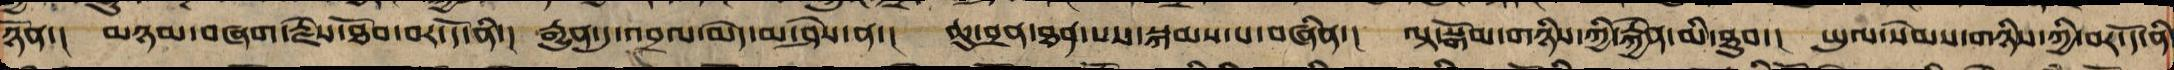དཔའ་ཉོན་། མཉམ་བཞག་རྗེས་ཐོབ་བར་དོར་ནི་། རྒྱུན་དུ་འབྲལ་མེད་མ་ཤེས་ན་། ཆུ་བྲན་ཐན་པས་བསྐམས་པ་བཞིན་། ལྟ་སྒོམ་གཉིས་ཀྱིས་རྐྱེན་མི་ཐུབ་། ཡུལ་སེམས་གཉིས་ཀྱི་བར་དོ་ནི
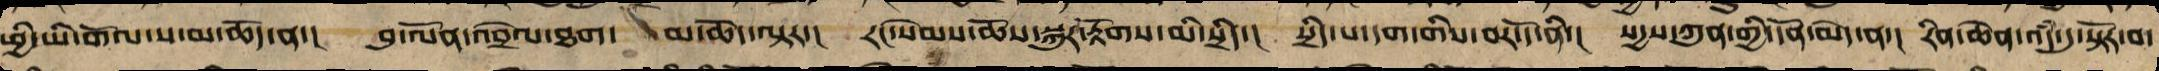ཕྱི་ཡི་གོལ་ས་མ་ཆོད་ན་། བུ་ལོན་འབྲེལ་ཐག་མ་ཆོད་ལྟར་། རང་སེམས་ཆོས་སྐུར་རྟོགས་མི་སྲིད་། སྲིད་པ་དག་གི་བར་དོར་ནི་། སདྱས་ཀུན་གྱི་དོན་མེད་ན་། རིན་ཆེན་འདཾ་དུ་སྟོར་བ་
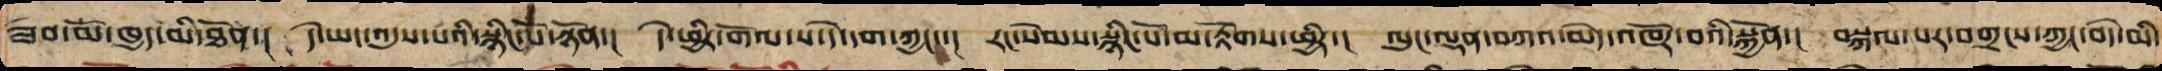ཟབ་མོ་ཁྱད་མི་ཐོན་། དེ་ཡང་འདུས་པའི་སྙིང་པོ་ཉོན་། དེ་ཕྱིར་གོལ་ས་དེ་དག་ཀྱང་་། རང་སེམས་སྙིང་པོ་མ་རྟོགས་ཕྱིར་། ལུང་ལྡན་བཀའ་མེད་འཁོར་བའི་སྐྱོན་། བསྐལ་པར་བགྲངས་ཀྱང་བདེ་མི་
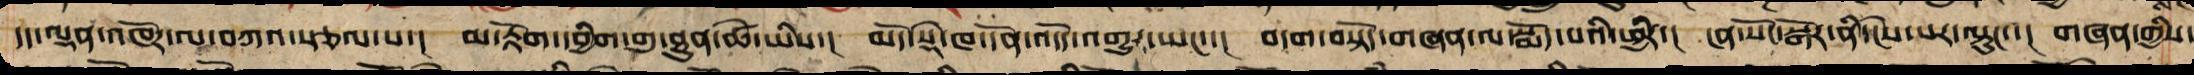དད་ལྡན་འཁོར་ལ་བཀའ་སྩལ་པ་། མ་རྟོགས་དབྱིག་དགུ་ཐུན་ཚེ་ཡིས་། མདོ་སྡེ་ཁ་དོན་གདོད་འགྱུར་ཀྱང་་། བདག་བསྟོད་གཞན་ལ་སྨོད་པའི་ཕྱིར་། ངན་སོང་སྒོར་ནི་ངེས་པར་ལྟུང་་། གཞན་གྱི་
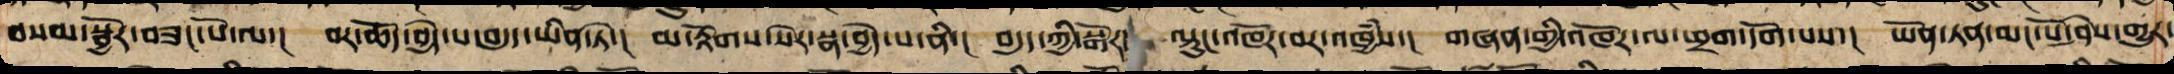བསམ་སྦྱོར་བཟང་པོ་ལ་། བར་ཆོད་བྱེད་པ་བདུད་ཡིན་ཏེ་། མ་རྟོགས་སེར་སྣ་བྱེད་པ་ནི་། བདུད་ཀྱི་སྒོར་ལྟུང་འཁོར་བར་འཁྱཾས་། གཞན་གྱི་འཁོར་ལ་ཕྲག་དོག་པས་། ཡོན་ཏན་མང་པོ་ཤེས་གྱུར་
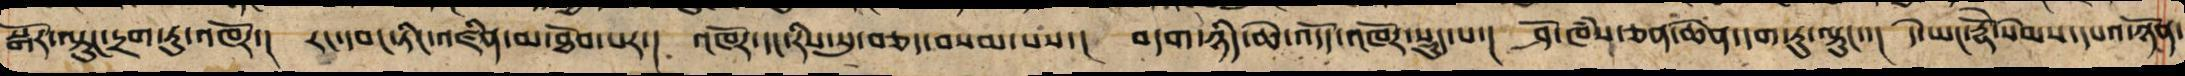སྒོར་ལྟུང་དྲག་ཏུ་འཁོར་། རང་དབང་ཏིང་འཛིན་མ་ཐོབ་པར་། འཁོར་དང་རིས་སུ་བཅད་བསམས་པས་། བདག་ཉིད་ཆེ་འདོད་འཁོར་སྡུད་པ་། ཤོ་ཁཾས་ཅན་ཆེན་དག་ཏུ་ལྟུང་་། དེ་ཡང་རྡོཻ་སེམས་དཔའ་ཉོན་
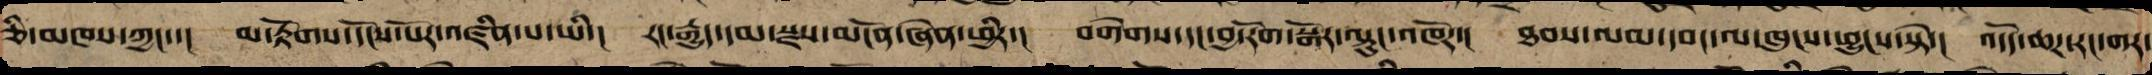ཅི་མཁས་ཀྱང་་། མ་རྟོགས་དངོས་པོར་འཛིན་པ་ཡིས་། རང་རྒྱུད་དམ་སྫས་མངོན་ཞེན་ཕྱིར་། བགེགས་དང་བྱ་རོག་སྒོར་ལྟུང་འཁོར་། ཐབས་ལམ་དབང་ལ་ཁུངས་ཕྱུངས་སྟེ་། འདོད་ཆཌ་རང་དགར་
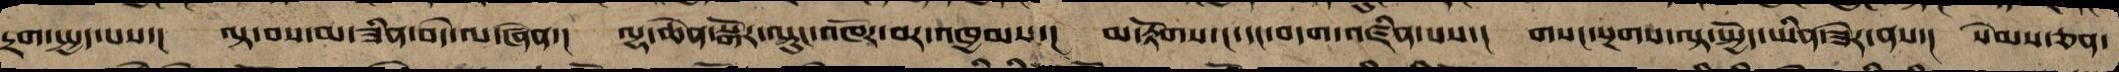དྲག་སྤྱད་པས་། ལྟ་བས་མ་ཟིན་བདེ་ལ་ཞེན་། ལྷ་ཆེན་སྒོར་ལྟུང་འཁོར་བར་འཁྱམས་། མ་རྟོགས་ང་དང་བདག་འཛིན་པས་། གསང་སྔགས་ལྟ་སྤྱོད་ཡིན་ཟེར་ནས་། སེམས་ཅན་
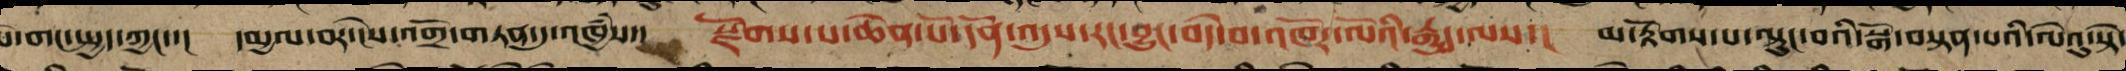པོ་གང་སྤྱད་ཀྱང་་། དམྱལ་བར་ངེས་འགྲོ་གཏན་དུ་འཁྱཾས་། སྫོགས་པ་ཆེན་པོ་དོན་འདུས་རང་བྱུང་བདེ་བའི་འཁོར་ལོའི་རྒྱུད་ལས་། མ་རྟོགས་པ་ལྟུང་བའི་སྒོ་བསྟན་པའི་ལེའུ་སྟེ་
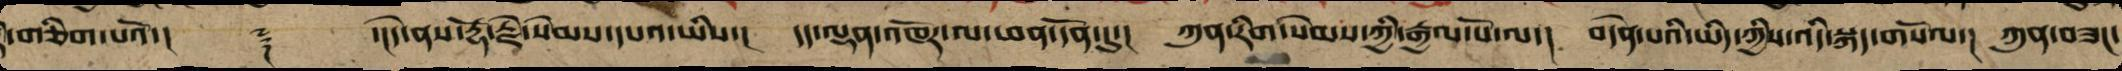རེ་གཅིག་པའོ་།། ༈ ་།།དེ་ནས་རྡོ་རྗེ་སེམས་དཔའ་ཡིས་། དད་ལྡན་འཁོར་ལ་ཕན་དོན་དུ་། ཀུན་རིག་སེམས་ཀྱི་རྒྱལ་པོ་ལ་། བདེན་པའི་ཡིད་ཀྱིས་འདི་སྐད་གསོལ་། ཀུན་བཟང་
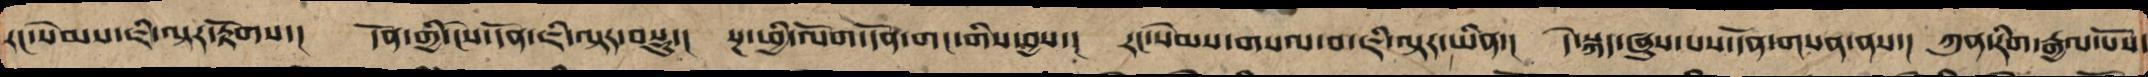རང་སེམས་ཇི་ལྟར་རྟོགས་། དོན་གྱི་ངེས་དོན་ཇི་ལྟར་བསྡུ་། སྔ་ཕྱི་ལོག་གནོན་གང་གིས་བྱས་། རང་སེམས་གསལ་བ་ཇི་ལྟར་ཡིན་། དེ་སྐད་ཞུས་པའི་དོན་གསན་ནས་། ཀུན་རིག་རྒྱལ་པོས་
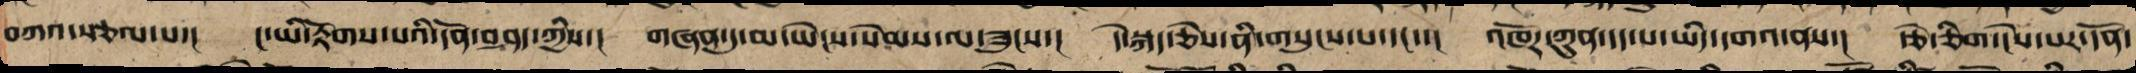བཀའ་སྩལ་པ་། ང་ཡི་རྟོགས་པའི་དོན་བཤད་ཀྱིས་། གཞན་དུ་མ་ཡེངས་སེམས་ལ་ཟུངས་། དེ་སྐད་ཅེས་ནི་གསུངས་པ་དང་་། འཁོར་ཀུན་དད་པ་ཡིད་དགའ་ནས་། རྩེ་གཅིག་ངེས་པར་དོན་
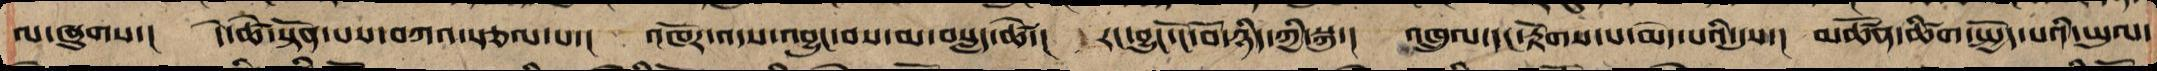ལ་ཞུགས་། དེ་ཚེ་སྟོན་པས་བཀའ་སྩལ་པ་། འཁོར་འདས་འབྱུང་བས་མ་བསླད་ཚེ་། རང་བྱུང་ངོ་བོ་ཉིད་ཀྱི་སྐུ་། འཁྲུལ་དང་རྟོགས་པ་མེད་པའི་དུས་། མཚོན་ཚིག་སྤྱོད་པའི་ཡུལ་
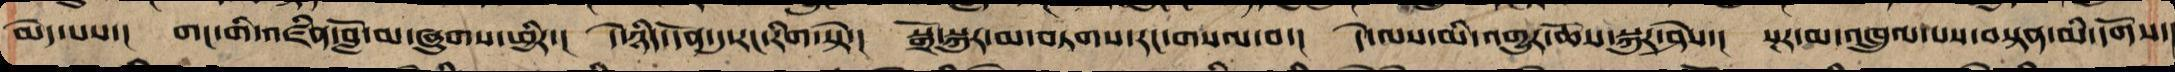མེད་པས་། གང་ཞིག་འཛིན་བློ་མ་ཞུགས་ཕྱིར་། དེ་ཉིད་དོན་དུ་རང་རིག་སྟེ་། སྒྲོ་སྐུར་མ་བཏགས་རང་གསལ་བ་། དེ་ལས་མི་འགྱུར་ཆོས་སྐུར་ཤེས་། སྔར་མ་འཁྲུལ་པས་བསྟན་མི་དགོས་
